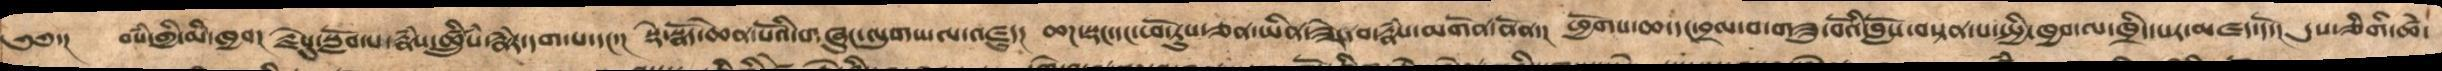༄༅་།    བསཾ་གྱི་མི་ཁྱབ།  རྗེསུ་སློབ་པ་རྣཾས་ཚྲིུཾས་རྣཾར་དག་པ་དང་།  སྡེ་སྣོད་ཆེན་པོའི་གཞུང་ལུགས་ལ་འཛུད།  ཆཌ་སྡང་དང་ཕོ་རུས་ཅན་ཡིན་ཟེར་བ་རྣཾས་མགོན་ནོན་།  ཕྱོགས་ཆ་དང་བྲལ་བ་གཟུ་བོའི་བློས་བསྟན་པ་སྤྱི་ཁྱབ་ལ་ཁྲིད་པར་མཛད་དོ།  དུས་ཅིགི་ཚེ་
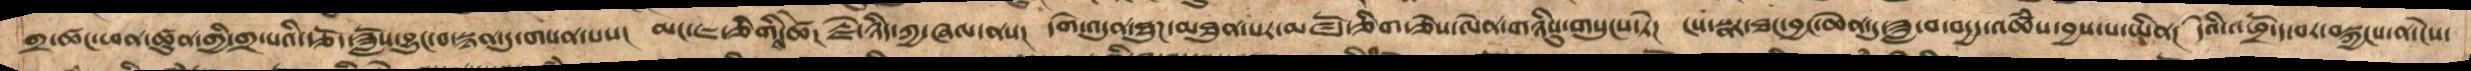གྲ་ཚང་ཕན་ཚུན་གྱི་གྲ་པའི་རྩོད་ཟློས་བྱུང་བ་སྙན་དུ་གསན་པས།  མང་ཇ་ཅིགིས་ཚེ།  རྫེ་ཉིད་ཀྱི་ཞལ་ནས།  དགེ་འདུན་ཐུཌ་མཐུན་སར་མཛོད་ཅིག་ཅེས་ལེན་གཉིསུ་གསུངས་ཏེ།  ངས་སྣར་ཐང་བྱང་ཆེན་དུ་ཟླ་བ་བདྱད་འཚཾས་བྱས་པ་ཡིན།  དེའི་འཕྲོ་ད་བར་བསྐྱངས་ན་ངེས་
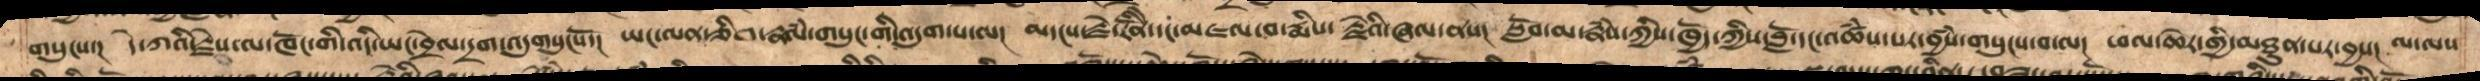གསུངས་། དེ་ཀའི་རྗེས་ལ་ཁོང་གི་འདི་ཡང་བྲེལ་དྲག་འདུགསུངསོ་།  ཡང་ལན་ཅིག་རྣལཾ་གསུང་གི་འདུག་པ་ལ།  མདངས་རྗེ་རིནོེ་དང་མཇལ་བ་རྨིས།  རྗེའི་ཞལ་ནས།  སློབ་མ་རྣཾས་ཀྱིས་ཁྱོད་ཀྱིས་བློ་དང་འཚཾས་པར་བྱཾས་གསུངས་བ་ལ།  ཕལ་ཆེར་གྱི་མཐུན་པར་བྱས། ལ་ལས
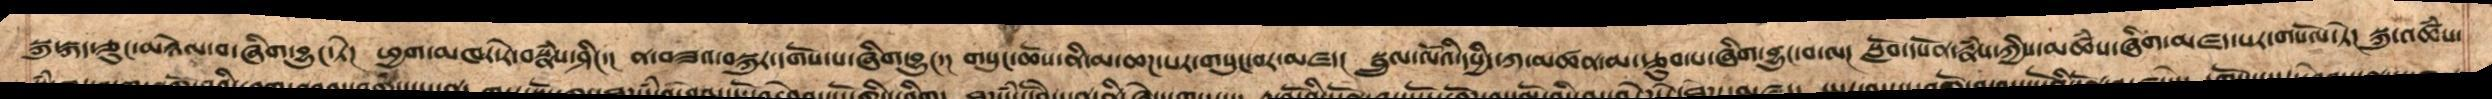སྐུ་ཀད་ཅུང་མཉེལ་བ་ཞིག་བྱུང་ཏེ།  ཕྱག་མཁར་རེ་བསྣཾས་ཤིང་།  ན་བཟའ་བསྐུར་དགོས་པ་ཞིག་བྱུང་།  གསུང་ཆོས་ནི་མ་ཆཌ་པར་གསུང་བར་མཛད།  སྦྲུལ་ལོའི་དཔྱིད་ཀ་མཚན་མ་རྩུབ་པ་ཞིག་བྱུང་བ་ལ།  སློབ་དཔོན་རྣཾས་ཀྱིས་མཚཾས་ཞིག་མཛད་པར་གསོལ་ཏེ།  སྐུ་འཚཾས་
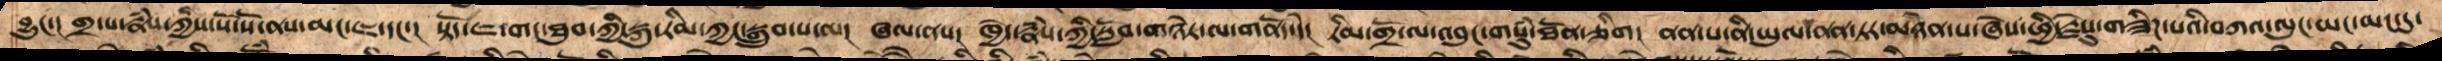བྱུང་།  གྲ་པ་རྣཾས་ཀྱིས་སོ་སོ་ནས་མང་ཇ་དང་།  སྟོད་ཇ་གང་ཐུབ་ཀྱི་སྐུ་རིམ་ཀྱང་སྒྲུབ་པ་ལ།  ཞལ་ནས།  ཁྱེད་རྣཾས་ཀྱི་སློབ་གཉེར་ལ་གནོད་དེ།  རིམ་གྲོ་ལ་འབུང་གསུཾ་ཐོན་ཅིག།  ནན་པ་ནི་ཡུལ་ནན་ཏར་གཉེན་པ་ཞེས་ཕྱི་རྗེསུ་གཟིཌ་པའི་བཀའ་ལུང་ཡང་མང་དུ་
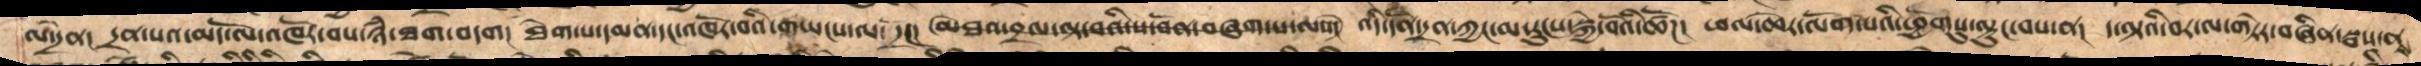ལ་དྲེན།  དྲན་པའ་མོད་ལ་འཁོར་བས་ཉཾ་ཐག་བདག།  ཐེག་པ་དམན་དང་འཁོར་བའི་གཡངས་ལ་དྲོང།  མཐའ་བྲལ་ལྟ་བའི་ས་བོན་བཞུག་པ་ལས།  འདི་དོན་དྲན་ཀྱང་མ་རུངས་སྐྱེ་བོའི་ཚོཌ།  ཕལ་ཆེར་ལོག་པའི་ཕྱོགསུ་ལྟུང་བས་ན།  ད་ལྟའི་བར་ལ་གཏེར་བཞིན་སྦས་ནས
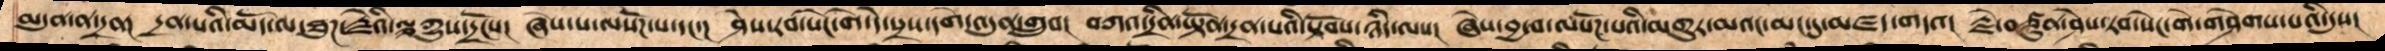མདུན་ན་དྲན།  དྲན་པའི་མོད་ལ་ཐུཌ་རྗེའི་ལྕཀྱུས་དྲོངས།  ཞེས་པ་ལསོཌ་པ་དང་།  ཤེས་རབ་སེང་གེ་དེ་སྲས་དགེ་འདུན་གྲུབ།  བཀའ་དྲིན་ཡྟོན་དྲན་པའི་སྟོབས་ཉིད་ལས།  ཞེས་བྱ་བ་ལསོཌ་པའི་མགུར་མའང་མང་དུ་མཛད་གདའ།  རྗེ་བཙུན་ཤེས་རབ་སེང་གེ་གཤེགས་པའི་དུས་
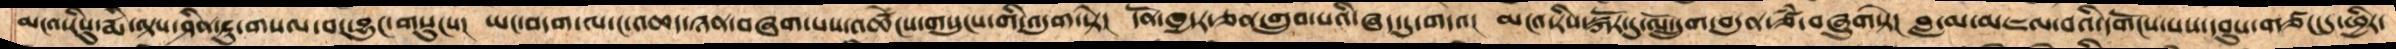མངའ་རིསུ་རྨི་ལྟས་ཤིན་ཏུ་གསལ་བར་བྱུང་གསུངས།  ཡང་བདག་ལ་ང་འཆད་ཉན་བཞག་པས་འཚེངས་གསུངས་གི་འདུག་སྟེ།  དོན་ཁྱདར་ཅན་གྲུབ་པའི་ཞད་དུ་གདའ།  མངའ་རིས་སྐོར་དུ་ལོ་དྲུག་བདུན་ཙཾ་བཞུགསྟེ།  བླ་མ་མཇལ་བའི་དགོངས་པས་དབུས་གཙང་དུ་ཕྱིར་
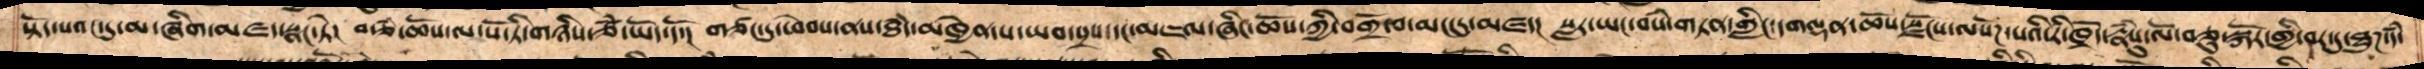སྟོད་པའང་དུ་མ་ཞིག་མཛད་སྣང་སྟེ།  བརྩཾ་ཆོས་ལ་པོ་ཏི་གཉིས་ཙཾ་ཡོད་དོ།  གཙང་དུ་ཕེབས་ནས་ཐཾད་མཁྱེན་པ་ཡབ་སྲས་དང་མཇལ་ཞིང་ཆོས་ཀྱི་བགྲོ་བ་མང་དུ་མཛད།  སླར་ཡང་བསཾ་གཏན་གླིང་དགལྡན་ཆོས་སྫོངས་ལསོཌ་པའི་རི་ཁྲོད་རྣཾསུ་ལོ་བཅུ་སྐོར་གྱི་བར་དུ་ཐུཌ་དཾ་
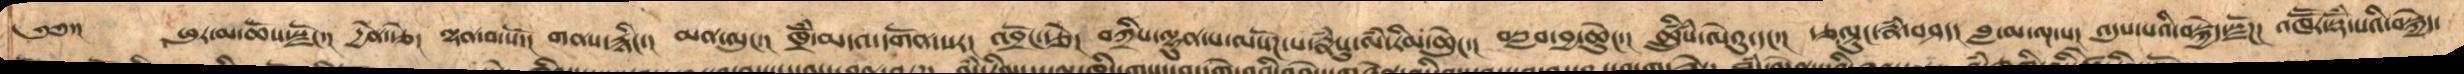༄༅་།   ཕུར་མ་ཆོས་སྫོང་།  དྱེན་རྩེ།  ལྷན་བ་སོ།  གནས་རྙིང་།  མན་ལུང་།  ཁྲོཾ་མདའ་དགོན་པར།  འབྲོང་རྩེ།  བཀྲིས་ལྷུན་པ་ལསོཌ་པ་རྣཾསུ་ལཾ་རིམ་ཆེུང་།  བསླབ་བྱ་ཆེུང་།  ཚྲིུཾས་ལེའུ་དང་།  རྩལྟུང་རྣཾ་བཤད།  བླ་མ་ལྔ་པ།  འདུས་པའི་བསྐྱེད་སྫོཌ།  འཁཽར་སྡོཾ་པའི་བསྐྱེད་
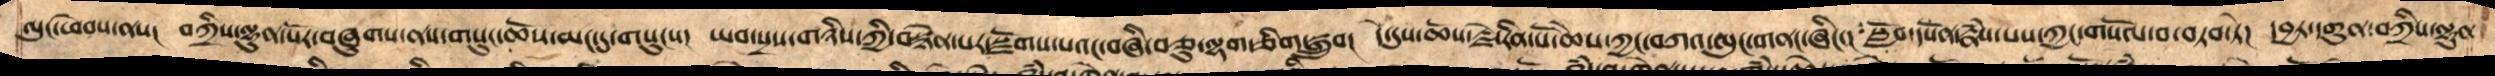ལུང་ཕེབས་ནས།   བཀྲིས་ལྷུན་པོར་བཞུགས་ནས་གསུང་ཆོས་མང་དུ་གསུངས།  ཡབ་སྲས་གཉིས་ཀྱི་བསྙེན་པར་སྫོཌ་པའང་བཞི་བཅུ་ལྷག་ཅིག་སྒྲུབ།  དེ་དུས་ཆོས་རྗེ་རིན་པོ་ཆེས་ཀྱང་བཀའ་ལུང་གནང་ཞིང་།  སློབ་དཔོན་རྣཾས་པས་ཀྱང་གསོལ་བ་བཏབ་ཏེ།  དབྱར་དགུན་བཀྲིས་ལྷུན་
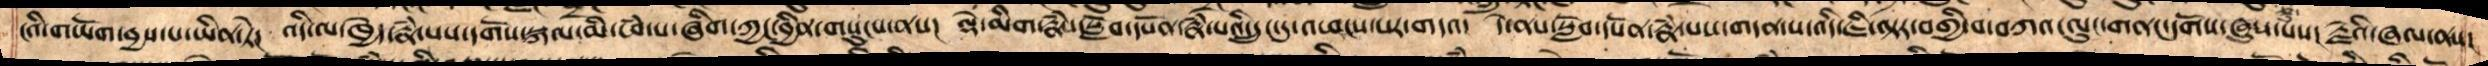ངའི་གཡོག་བྱས་པ་ཡིན་ཏེ།  འདི་ལ་ཁྱེད་རྣཾ་པས་དགོས་སྐལ་མི་ཕཾ་པ་ཞིག་ཀྱང་བྱིན་གསུངས་ནས།  ལྡེ་མིག་རྣཾས་སློབ་དཔོན་རྣཾ་པའི་དྲུང་དུ་འཕངས་པར་གདའ།  དེ་ནས་སློབ་དཔོན་རྣཾ་པས་གདན་ས་འདི་ཇི་ལྟར་བགྱི་བ་བཀའ་ལུང་གནང་དགོས་ཞུས་པས།  རྗེའི་ཞལ་ནས་
